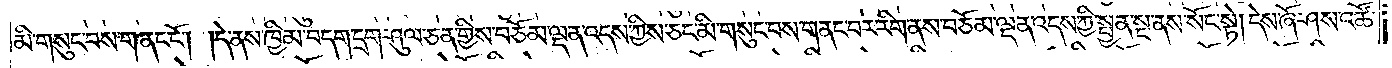མི་གསུང་བས་གནང་ངོ༌། །དེ་ནས་ཁྱིམ་བདག་དྲག་ཤུལ་ཅན་གྱིས་བཅོམ་ལྡན་འདས་ཀྱིས་ཅང་མི་གསུང་བས་གནང་བར་རིག་ནས་བཅོམ་ལྡན་འདས་ཀྱི་སྤྱན་སྔ་ནས་སོང་སྟེ། དེས་ཞོ་ཤས་འཚོ་
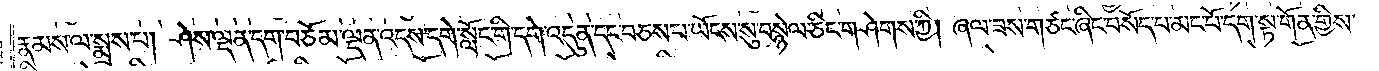རྣམས་ལ་སྨྲས་པ། ཤེས་ལྡན་དག་བཅོམ་ལྡན་འདས་དགེ་སློང་གི་དགེ་འདུན་དང་བཅས་པ་ཡོངས་སུ་བསྙེལ་ཅིང་གཤེགས་ཀྱི། ཞལ་ཟས་གཙང་ཞིང་བསོད་པ་མང་པོ་དག་སྟ་གོན་གྱིས་
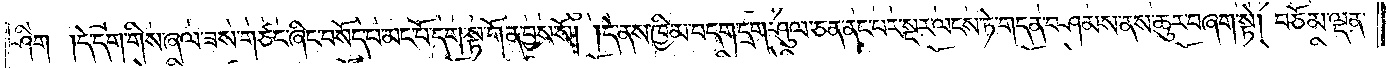ཤིག །དེ་དག་གིས་ཞལ་ཟས་གཙང་ཞིང་བསོད་པ་མང་པོ་དག་སྟ་གོན་བྱས་སོ། །དེ་ནས་ཁྱིམ་བདག་དྲག་ཤུལ་ཅན་ནང་པར་སྔར་ལངས་ཏེ་གདན་བཤམས་ནས་ཆུར་བཞག་སྟེ། བཅོམ་ལྡན་
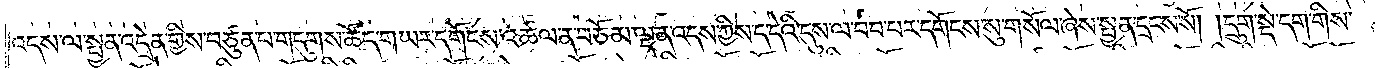འདས་ལ་སྤྱན་འདྲེན་གྱིས་བཙུན་པ་གདུགས་ཚོད་གཡར་དགོངས་འཚལ་ན་བཅོམ་ལྡན་འདས་ཀྱིས་ད་དེའི་དུས་ལ་བབ་པར་དགོངས་སུ་གསོལ་ཞེས་སྤྱན་དྲངས་སོ། །དྲུག་སྡེ་དག་གིས་
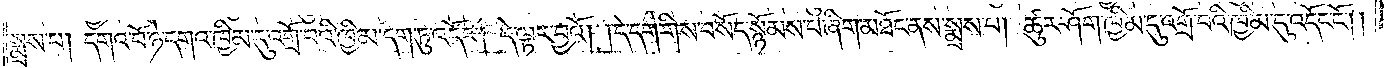སྨྲས་པ། དགའ་བོ་ཉེ་དགའ་ཁྱིམ་དུ་འགྲོ་བའི་ཁྱིམ་དག་ཏུ་འདོང༌། དེ་ལྟར་བྱའོ། །དེ་དག་གིས་བསོད་སྙོམས་པ་ཞིག་མཐོང་ནས་སྨྲས་པ། ཚུར་ཤོག་ཁྱིམ་དུ་འགྲོ་བའི་ཁྱིམ་དུ་འདོང་ངོ༌། །
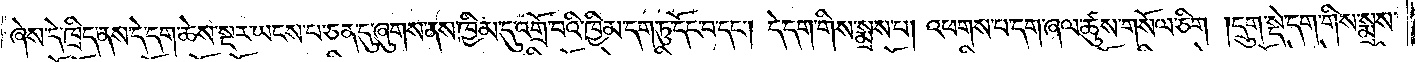ཞེས་དེ་ཁྲིད་ནས་དེ་དག་ཆེས་སྔར་ཡངས་པ་ཅན་དུ་ཞུགས་ནས་ཁྱིམ་དུ་འགྲོ་བའི་ཁྱིམ་དག་ཏུ་དོང་བ་དང༌། དེ་དག་གིས་སྨྲས་པ། འཕགས་པ་དག་ཞལ་ཆུས་གསོལ་ཅིག །དྲུག་སྡེ་དག་གིས་སྨྲས་
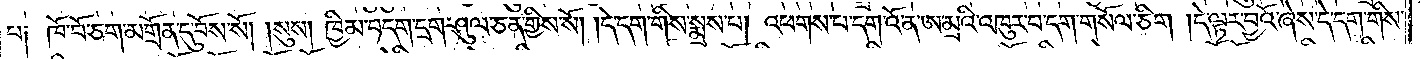པ༑ ཁོ་བོ་ཅག་མགྲོན་དུ་བོས་སོ། །སུས། ཁྱིམ་བདག་དྲག་ཤུལ་ཅན་གྱིས་སོ། །དེ་དག་གིས་སྨྲས་པ། འཕགས་པ་དག་འོ་ན་ཨ་མྲའི་འཁུར་བ་དག་གསོལ་ཅིག །དེ་ལྟར་བྱའོ་ཞེས་དེ་དག་གིས་
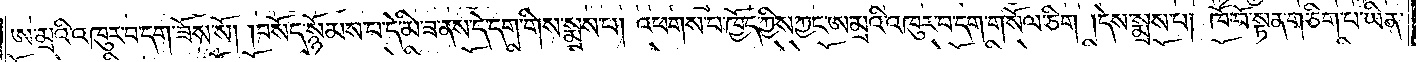ཨ་མྲའི་འཁུར་བ་དག་ཟོས་སོ། །བསོད་སྙོམས་པ་དེ་མི་ཟ་ནས་དེ་དག་གིས་སྨྲས་པ། འཕགས་པ་ཁྱོད་ཀྱིས་ཀྱང་ཨ་མྲའི་འཁུར་བ་དག་གསོལ་ཅིག །དེས་སྨྲས་པ། ཁོ་བོ་སྟན་གཅིག་པ་ཡིན་
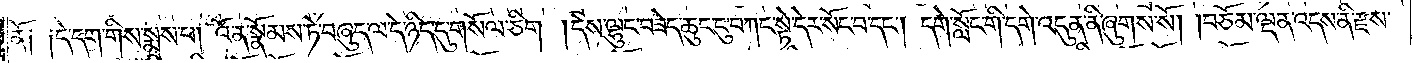ནོ༑ ༑དེ་དག་གིས་སྨྲས་པ། འོ་ན་སྣོམས་ཏེ་བཞུད་ལ་དེ་ཉིད་དུ་གསོལ་ཅིག །དེས་ལྷུང་བཟེད་ཆུང་ངུ་བཀང་སྟེ་དེར་སོང་བ་དང༌། དགེ་སློང་གི་དགེ་འདུན་ནི་ཞུགས་སོ། །བཅོམ་ལྡན་འདས་ནི་རྫས་
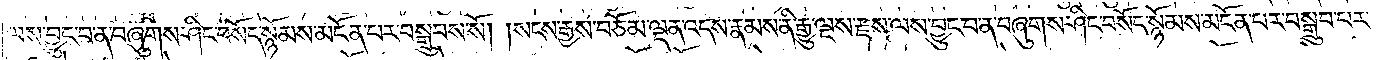ལས་བྱུང་བ་ན་བཞུགས་ཤིང་བསོད་སྙོམས་མངོན་པར་བསྒྲུབས་སོ། །སངས་རྒྱས་བཅོམ་ལྡན་འདས་རྣམས་ནི་རྒྱུ་ལྔས་རྫས་ལས་བྱུང་བ་ན་བཞུགས་ཤིང་བསོད་སྙོམས་མངོན་པར་བསྒྲུབ་པར་
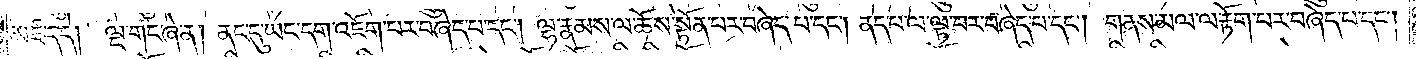མཛད་དེ། ལྔ་གང་ཞེ་ན། ནང་དུ་ཡང་དག་འཇོག་པར་བཞེད་པ་དང༌། ལྷ་རྣམས་ལ་ཆོས་སྟོན་པར་བཞེད་པ་དང༌། ནད་པ་ལྟ་བར་བཞེད་པ་དང༌། གནས་མལ་ལ་རྟོག་པར་བཞེད་པ་དང༌།
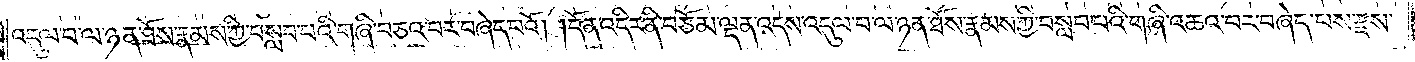འདུལ་བ་ལ་ཉན་ཐོས་རྣམས་ཀྱི་བསླབ་པའི་གཞི་བཅའ་བར་བཞེད་པའོ། །དོན་འདིར་ནི་བཅོམ་ལྡན་འདས་འདུལ་བ་ལ་ཉན་ཐོས་རྣམས་ཀྱི་བསླབ་པའི་གཞི་འཆའ་བར་བཞེད་པས་རྫས་
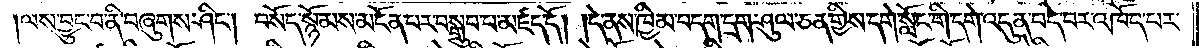ལས་བྱུང་བ་ནི་བཞུགས་ཤིང༌། བསོད་སྙོམས་མངོན་པར་བསྒྲུབ་པ་མཛད་དོ། །དེ་ནས་ཁྱིམ་བདག་དྲག་ཤུལ་ཅན་གྱིས་དགེ་སློང་གི་དགེ་འདུན་བདེ་བར་འཁོད་པར་
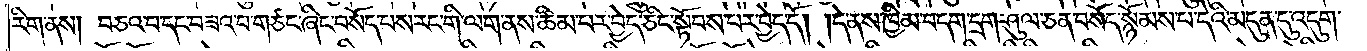རིག་ནས། བཅའ་བ་དང་བཟའ་བ་གཙང་ཞིང་བསོད་པས་རང་གི་ལག་ནས་ཚིམ་པར་བྱེད་ཅིང་སྟོབས་པར་བྱེད་དོ། །དེ་ནས་ཁྱིམ་བདག་དྲག་ཤུལ་ཅན་བསོད་སྙོམས་པ་དེའི་མདུན་དུ་འདུག་
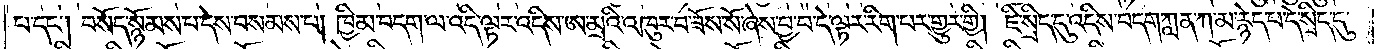པ་དང༌། བསོད་སྙོམས་པ་དེས་བསམས་པ། ཁྱིམ་བདག་ལ་འདི་ལྟར་འདིས་ཨ་མྲའི་འཁུར་བ་ཟོས་སོ་ཞེས་བྱ་བ་དེ་ལྟར་རིག་པར་གྱུར་གྱི། ཇི་སྲིད་དུ་འདིས་བདག་ཀླན་ཀ་མ་རྙེད་པ་དེ་སྲིད་དུ་
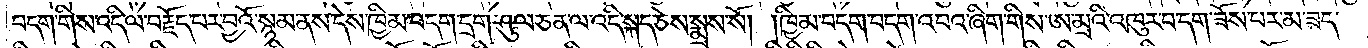བདག་གིས་འདི་ལ་བརྗོད་པར་བྱའོ་སྙམ་ནས་དེས་ཁྱིམ་བདག་དྲག་ཤུལ་ཅན་ལ་འདི་སྐད་ཅེས་སྨྲས་སོ། །ཁྱིམ་བདག་བདག་འབའ་ཞིག་གིས་ཨ་མྲའི་འཁུར་བ་དག་ཟོས་པར་མ་ཟད་
